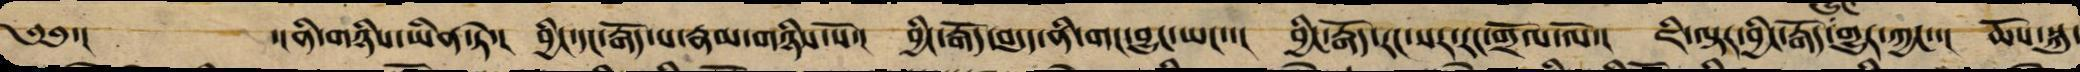༄༅་། ་།ནི་གཉིས་ཡིན་ཏེ་། བྱིང་དང་རྒོད་པ་རྣམ་གཉིས་སོ་། བྱིང་རྒོད་བདུད་ནི་གང་བྱུང་ཡང་་། བྱིང་རྒོད་རང་སར་རང་གྲོལ་ལོ་། ཇི་ལྟར་བྱིང་རྒོད་གྱུར་ཀྱང་་། ཆོས་སྐུ་
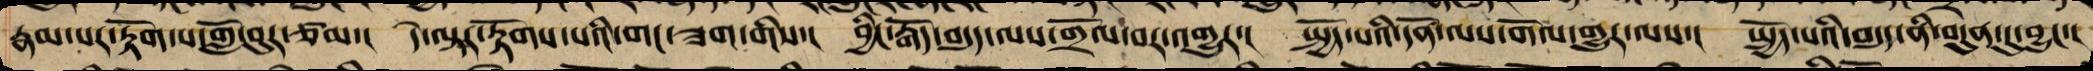རྣམ་པར་རྟོག་པ་གློ་བུར་ཙམ་། དེ་ལྟར་རྟོགས་པའི་གང་ཟག་གིས་། བྱིང་རྒོད་བདུད་ལས་གྲོལ་བར་འགྱུར་། སྤྱོད་པའི་དོན་ལས་གོལ་གྱུར་ལས་། སྤྱོད་པའི་བདུད་ནི་བདུན་དུ་བྱུང་།
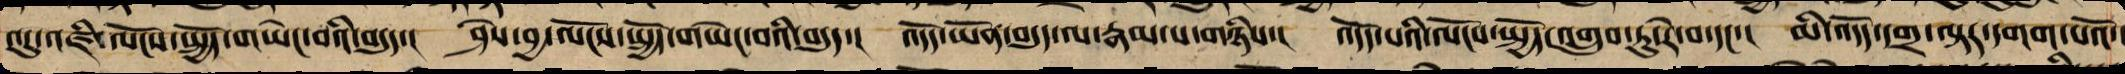འདུ་འཛི་ལོངས་སྤྱོད་གཡེང་བའི་བདུད་། ཤེས་བྱ་ལོངས་སྤྱོད་གཡེང་བའི་བདུད་། འདོད་ཡོན་བདུད་ལ་རྣམ་པ་གཉིས་། འདོད་པའི་ལོངས་སྤྱོད་འགྲུབ་ཏུ་རེ་བ་དང་། མི་འདོད་དགྲ་ལྟར་དགག་པའོ་།
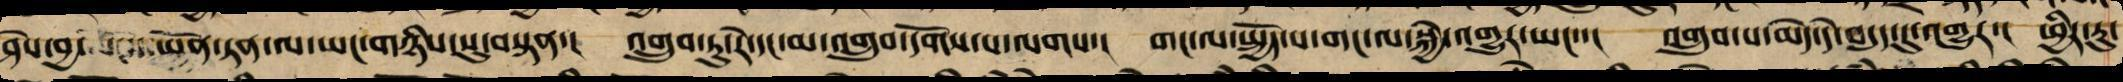ཤེས་བྱ་ལོངས་ཡོན་ཏན་ལ་ཡང་གཉིས་སུ་བསྟན་། འགྲུབ་ཏུ་རེ་དང་མ་འགྲུབ་དགོས་པ་ལགས་། གང་ལ་སྤྱོད་པ་གང་ལ་སྐྱེ་གྱུར་ཡང་་། འགྲུབ་པ་མེད་དེ་བདུད་དུ་འགྱུར་། ཕྱིར་རུ་
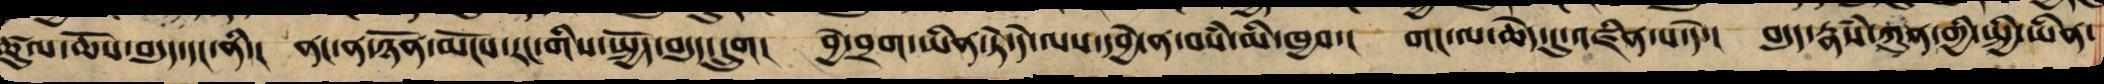ཚུལ་ཆོས་བདུད་དང་ནི་། ནང་ན་ཉོན་མོངས་རང་གིས་སྤྱོད་བདུད་དྲུག། བྱེ་བྲག་ཡིན་ཏེ་དེ་ལས་དབྱེ་ན་བསཾ་མི་ཁྱབ་། གང་ལ་ཆེད་དུ་འཛིན་པ་དེ་། བདུད་རྣཾས་ཀུན་གྱི་སྤྱི་ཡིན་
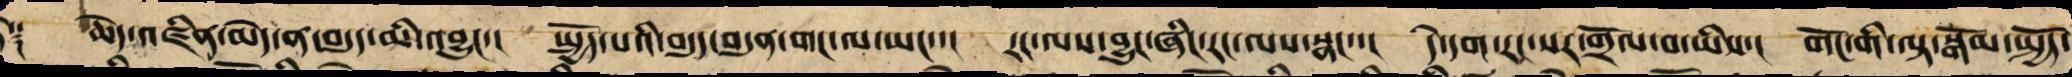ཏེ༑ ཆེད་འཛིན་མེད་ན་བདུད་མི་འབྱུང་། སྤྱོད་པའི་བདུད་བདུན་གང་ལ་ཡང་་། རང་ལས་བྱུང་ཞིང་རང་ལས་སྣང་་། དེ་དག་རང་སར་གྲོལ་བ་ཡིས་། གོང་གི་ལྟ་སྒོམ་སྤྱོད་
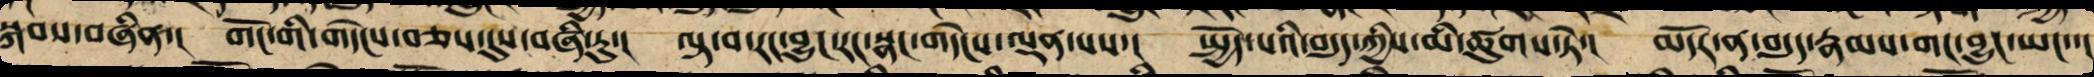སྐབས་བཞིན་། གོང་གི་གདེང་བཅས་དུས་བཞིན་དུ་། ལྟ་བ་རང་བྱུང་རང་སྣང་གདེང་ལྡན་པས་། སྤྱོད་པའི་བདུད་ཀྱིས་མི་ཚུགས་ཏེ་། མདོར་ན་བདུད་རྣམས་གང་བྱུང་ཡང་་།
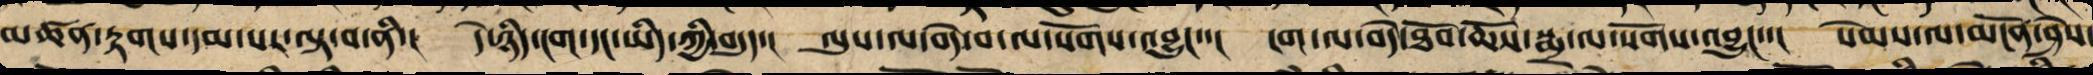མཚན་རྟགས་དམ་པར་བལྟ་བ་ནི་། དེ་ཉིད་ངག་དང་ཡིད་ཀྱི་བདུད་། ལུས་ལ་བདེ་བ་ལ་སོགས་འབྱུང་་། ངག་ལ་བདེ་ཐོབ་ཆོས་སྨྲ་ལ་སོགས་འབྱུང་་། སེམས་ལ་མངོན་ཤེས་
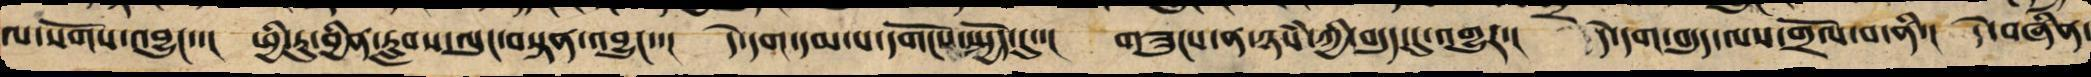ལ་སོགས་འབྱུང་་། ཕྱི་རུ་བྱིན་རླབས་ལུང་བསྟན་འབྱུང་་། དེ་ལྟར་དམ་པར་དགོངས་སྤྱོད་དུ་་། བཟུང་ན་ཉཾས་ཀྱི་བདུད་དུ་འགྱུར་། དེ་དག་བདུད་ལས་འགྲོལ་བ་ནི་། དེ་བཞིན་
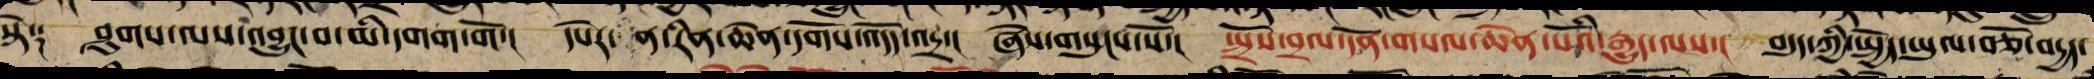སྟེ༑ ཤུགས་ལས་འབྱུང་བ་མི་དགག་གོ་། དཔེར་ན་རིན་ཆེན་དགོས་འདོད་འདྲ་། ཞེས་གསུངས་སོ་། སྤྲོས་བྲལ་དོན་གསལ་ཆེན་པོའི་རྒྱུད་ལས་། བདུད་ཀྱི་སྤྱོད་ཡུལ་བཅོ་བདྱད་
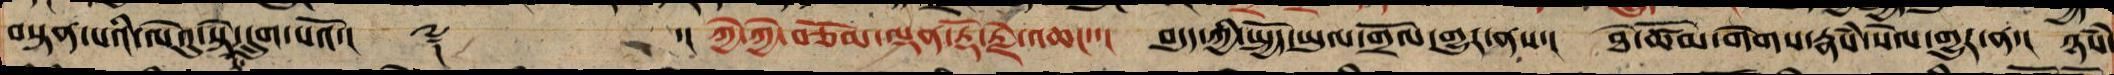བསྟན་པའི་ལེའུ་སྟེ་རེ་དྲུག་པའོ་།། ༈  ་།། ཀྱེ་ཀྱེ་བཅོམ་ལྡན་རྡོ་རྗེ་འཆང་་། བདུད་ཀྱི་སྤྱོད་ཡུལ་གྲོལ་གྱུར་ནས་། ཐེ་ཙོམ་གེགས་རྣཾས་སེལ་གྱུར་ན་། ཉཾས
